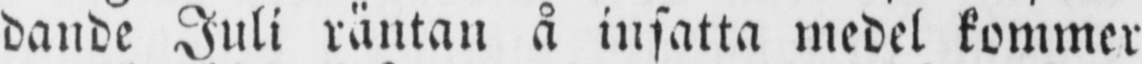dande Juli räntan å insatta medel kommer
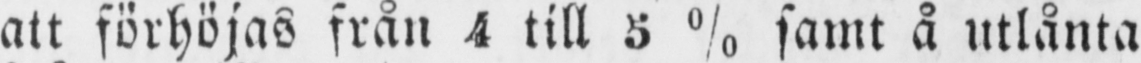att förhöjas från 4 till 5 % samt å utlånta
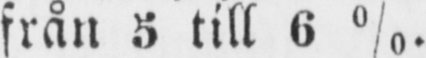från 5 till 6 %.
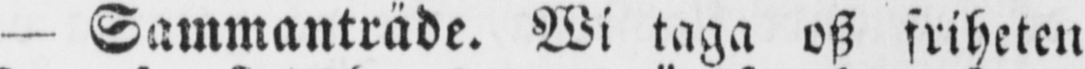— Sammanträde. Wi taga osz friheten
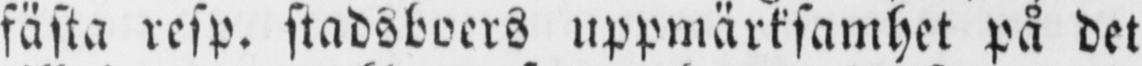fästa resp. stadsboers uppmärksamhet på det
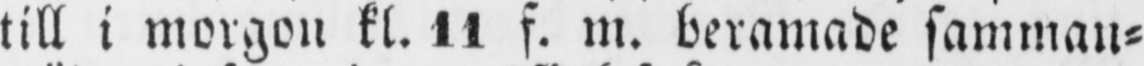till i morgon kl. 11 f. m. beramade samman-
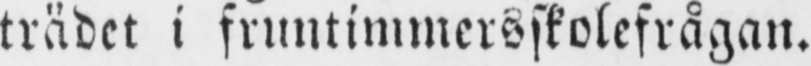trädet i fruntimmersskolefrågan.
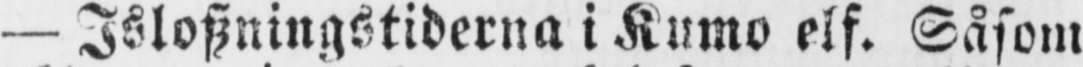— Isloszningstiderna i Kumo elf. Såsom
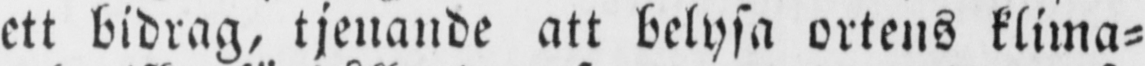ett bidrag, tjenande att belysa ortens klima-
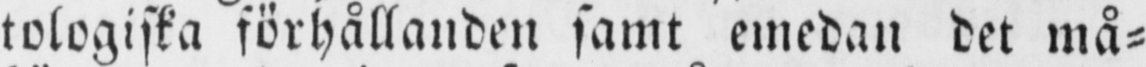tologiska förhållanden samt emedan det må-
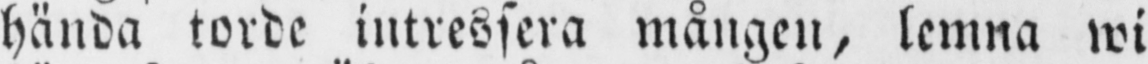hända torde intressera mången, lemna wi
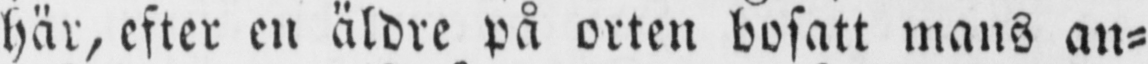här, efter en äldre på orten bosatt mans an-
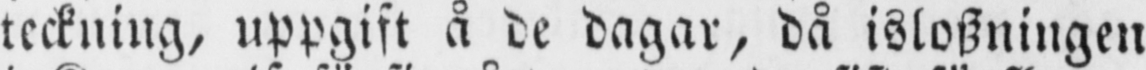teckning, uppgift å de dagar, då isloszningen
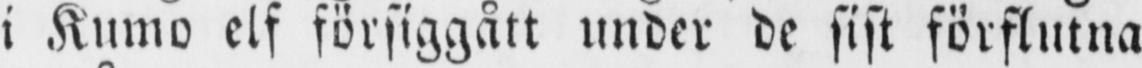i Kumo elf försiggått under de sist förflutna
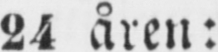24 åren:
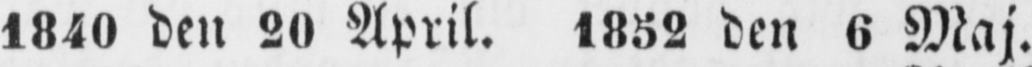1840 den 20 April. 1852 den 6 Maj.
